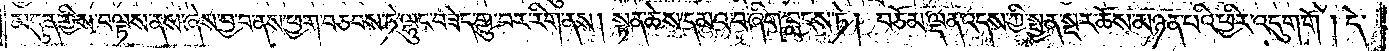མདུན་གྱིས་བལྟས་ནས་ཞེས་བྱ་བ་ནས་ཕྱག་བཅབས་ཏེ་ལྷུང་བཟེད་གྱུ་བར་རིག་ནས། སྟན་ཆེས་དམའ་བ་ཞིག་བླངས་ཏེ། བཅོམ་ལྡན་འདས་ཀྱི་སྤྱན་སྔར་ཆོས་མཉན་པའི་ཕྱིར་འདུག་གོ །དེ་
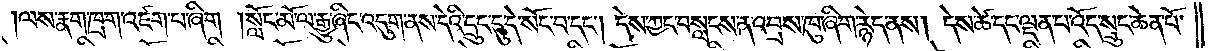ལས་རྣག་ཁྲག་འཛག་པ་ཞིག །སློང་མོ་ལ་རྒྱུ་ཞིང་འདུག་ནས་དེའི་དྲུང་དུ་དེ་སོང་བ་དང༌། དེས་ཀྱང་བསླངས་ན་འབྲས་བུ་ཞིག་རྙེད་ནས། དེས་ཚེ་དང་ལྡན་པ་འོད་སྲུང་ཆེན་པོ་
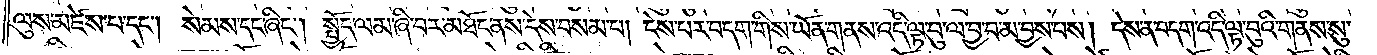ལུས་མཛེས་པ་དང༌། སེམས་དང་ཞིང༌། སྤྱོད་ལམ་ཞི་བར་མཐོང་ནས་དེས་བསམ་པ། ངེས་པར་བདག་གིས་ཡོན་གནས་འདི་ལྟ་བུ་ལ་བྱ་བ་མ་བྱས་པས། དེས་ན་བདག་འདི་ལྟ་བུའི་གནས་སུ་
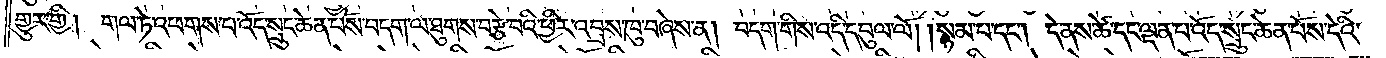གྱུར་གྱི། གལ་ཏེ་འཕགས་པ་འོད་སྲུང་ཆེན་པོས་བདག་ལ་ཐུགས་བརྩེ་བའི་ཕྱིར་འབྲས་ཁུ་བཞེས་ན། བདག་གིས་འདི་དབུལ་ལོ། །སྙམ་པ་དང༌། དེ་ནས་ཚེ་དང་ལྡན་པ་འོད་སྲུང་ཆེན་པོས་དེའི་
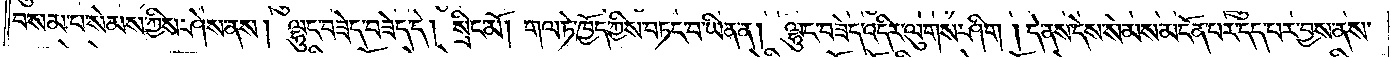བསམ་པ་སེམས་ཀྱིས་ཤེས་ནས། ལྷུང་བཟེད་བཟེད་དེ། སྲིང་མོ། གལ་ཏེ་ཁྱོད་ཀྱིས་བཏང་བ་ཡིན་ན། ལྷུང་བཟེད་འདིར་ལུགས་ཤིག །དེ་ནས་དེས་སེམས་མངོན་པར་དད་པར་བྱས་ནས་
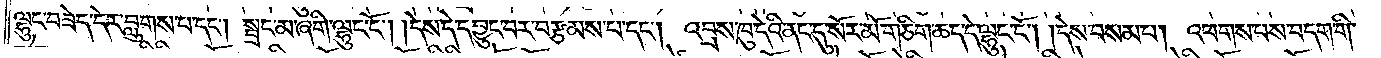ལྷུང་བཟེད་དེར་བླུགས་པ་དང༌། སྦྲང་མ་ཞིག་ལྷུང་ངོ༌། །དེས་དེ་དབྱུང་བར་བརྩམས་པ་དང༌། འབྲས་ཁུ་དེའི་ནང་དུ་སོར་མོ་གཅིག་ཆད་དེ་ལྷུང་ངོ༌། །དེས་བསམ་པ། འཕགས་པས་བདག་གི་
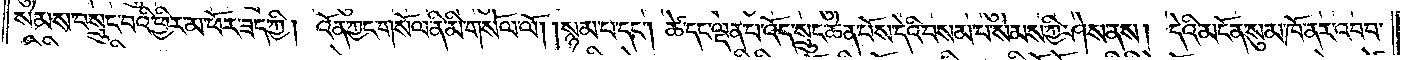སེམས་བསྲུང་བའི་ཕྱིར་མ་ཕོར་ཟད་ཀྱི། འོན་ཀྱང་གསོལ་ནི་མི་གསོལ་ལོ། །སྙམ་པ་དང༌། ཚེ་དང་ལྡན་པ་འོད་སྲུང་ཆེན་པོས་དེའི་བསམ་པ་སེམས་ཀྱི་ཤེས་ནས། དེའི་མངོན་སུམ་ཁོ་ནར་འབབ་
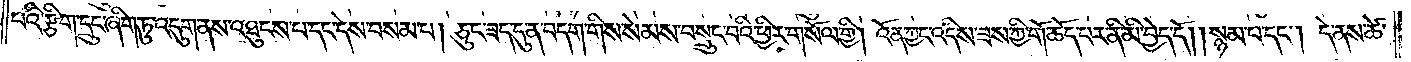པའི་རྩིག་དྲུང་ཞིག་ཏུ་འདུག་ནས་འཐུངས་པ་དང་དེས་བསམ་པ། ཅུང་ཟད་དུ་ན་བདག་གིས་སེམས་བསྲུང་བའི་ཕྱིར་གསོལ་གྱི། འོན་ཀྱང་འདིས་ཟས་ཀྱི་གོ་ཆོད་པར་ནི་མི་བྱེད་དོ། །སྙམ་པ་དང༌། དེ་ནས་ཚེ་
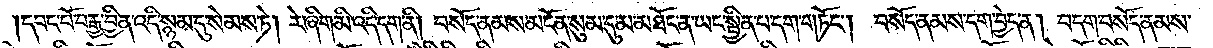དབང་པོ་བརྒྱ་བྱིན་འདི་སྙམ་དུ་སེམས་ཏེ། རེ་ཞིག་མི་འདི་དག་ནི། བསོད་ནམས་མངོན་སུམ་དུ་མ་མཐོང་ན་ཡང་སྦྱིན་པ་དག་གཏོང༌། བསོད་ནམས་དག་བྱེད་ན། བདག་བསོད་ནམས་
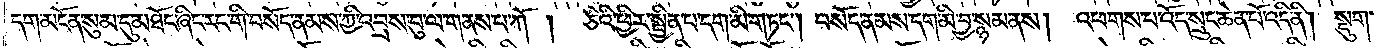དག་མངོན་སུམ་དུ་མཐོང་ཞིང་རང་གི་བསོད་ནམས་ཀྱི་འབྲས་བུ་ལ་གནས་པ་ཀོ། ཅིའི་ཕྱིར་སྦྱིན་པ་དག་མི་གཏང༌། བསོད་ནམས་དག་མི་བྱ་སྙམ་ནས། འཕགས་པ་འོད་སྲུང་ཆེན་པོ་འདི་ནི། སྡུག་
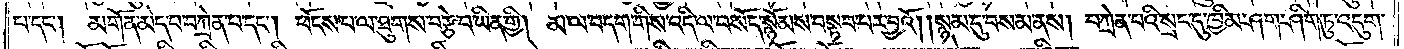པ་དང༌། མགོན་མེད་པ་བཀྲེན་པ་དང༌། ཕོངས་པ་ལ་ཐུགས་བརྩེ་བ་ཡིན་གྱི། མ་ལ་བདག་གིས་འདི་ལ་བསོད་སྙོམས་བསྟབ་པར་བྱའོ། །སྙམ་དུ་བསམ་ནས། བཀྲེན་པའི་སྲང་དུ་ཁྱིམ་ཤག་ཤིག་ཏུ་འདུག་
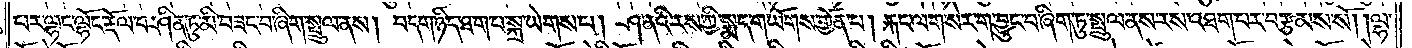པར་ལྷང་ལྷོང་རྡོལ་པ་ཤིན་ཏུ་མི་བཟང་བ་ཞིག་སྤྲུལ་ནས། བདག་ཉིད་ཐ་ག་པ་སྐྲ་ཡེགས་པ། ཤ་ནའི་རས་ཀྱི་སྨད་གཡོགས་གྱོན་པ། རྐང་ལག་སེར་ག་བྱུང་བ་ཞིག་ཏུ་སྤྲུལ་ནས་རས་འཐག་པར་བརྩམས་སོ། །ལྷ་
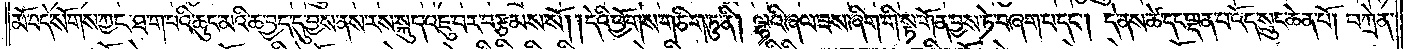མོ་བདེ་སོགས་ཀྱང་ཐ་ག་པའི་ཆུང་མའི་ཆ་བྱད་དུ་བྱས་ནས་རས་སྐུད་འཇུ་བར་བརྩམས་སོ། །དེའི་ཕྱོགས་གཅིག་ཏུ་ནི། ལྷའི་ཞལ་ཟས་ཞིག་གི་སྟ་གོན་བྱས་ཏེ་བཞག་པ་དང༌། དེ་ནས་ཚེ་དང་ལྡན་པ་འོད་སྲུང་ཆེན་པོ། བཀྲེན་
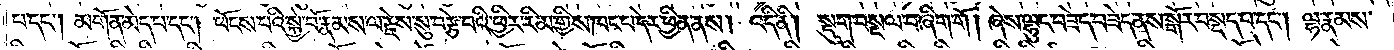པ་དང༌། མགོན་མེད་པ་དང༌། ཕོངས་པའི་སྐྱེ་བོ་རྣམས་ལ་རྗེས་སུ་བརྩེ་བའི་ཕྱིར་རིམ་གྱིས་ཁང་པ་དེར་ཕྱིན་ནས། འདི་ནི། སྡུག་བསྔལ་བ་ཞིག་གོ །ཞེས་ལྷུང་བཟེད་བཟེད་ནས་སྒོར་བསྡད་པ་དང༌། ལྷ་རྣམས་
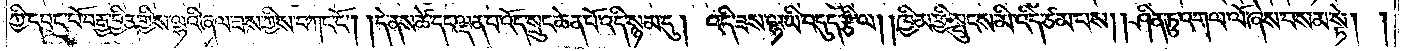ཀྱི་དབང་པོ་བརྒྱ་བྱིན་གྱིས་ལྷའི་ཞལ་ཟས་ཀྱིས་བཀང་ངོ༌། །དེ་ནས་ཚེ་དང་ལྡན་པ་འོད་སྲུང་ཆེན་པོ་འདི་སྙམ་དུ། འདི་ཟས་ལྷ་ཡི་བདུད་རྩི་ལ། །ཁྱིམ་གྱི་སྤུངས་མི་འདི་ཙམ་པས། །ཤིན་ཏུ་འགལ་ལོ་ཞེས་བསམ་སྟེ། །
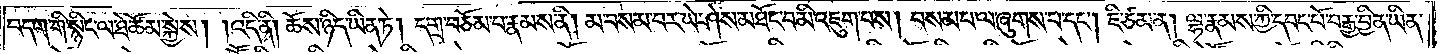བདག་གི་སྙིང་ལ་ཐེ་ཚོམ་སྐྱེས། །འདི་ནི། ཆོས་ཉིད་ཡིན་ཏེ། དགྲ་བཅོམ་པ་རྣམས་ནི། མ་བསམ་པར་ཡེ་ཤེས་མཐོང་བ་མི་འཇུག་པས། བསམ་པ་ལ་ཞུགས་པ་དང༌། ཇི་ཙམ་ན། ལྷ་རྣམས་ཀྱི་དབང་པོ་བརྒྱ་བྱིན་ཡིན་
